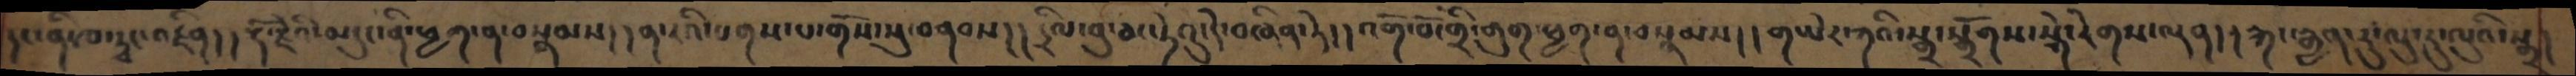དང་ནི་ཁ་ཏྭང་འཛིན། །རྡོ་རྗེའི་མདུང་ནི་ཕྱག་ན་བསྣམས། །ན་རའི་པགས་པ་གོས་སུ་བནབས། །དྲིལ་བུ་ཅང་ཏེའུ་དེ་བཞིན་ཏེ། །འགོ་བོ་གྲི་གུག་ཕྱག་ན་བསྣམས། །གཡེར་ཀའི་སྒྲ་སྒྲོགས་སྐེ་རེགས་ལྡན། །རྐང་རྒྱན་རུ་ལུ་རུ་ལུའི་སྒྲ་
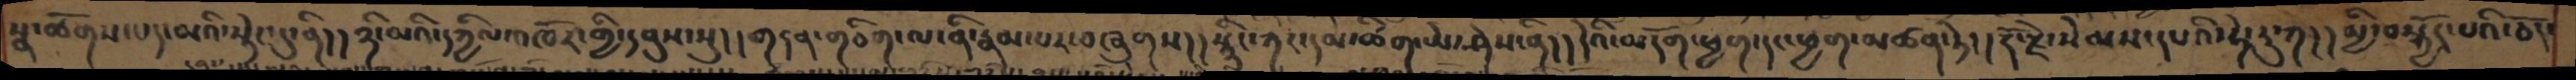སྣ་ཚོགས་པད་མའི་སྟེང་དུ་ནི། །ཉི་མའི་དཀྱིལ་འཁོར་གྱི་དབུས་སུ།། གདན་གཅིག་ལ་ནི་རྣམ་པར་བཞུགས། །སྙིང་ཀར་དམ་ཚིག་ཡེ་ཤེས་ནི།།དེའི་མདོག་ཕྱག་དང་ཕྱག་མཚན་ཏེ། །རྡོ་རྗེ་སེམས་དཔའི་ཧེ་རུ་ཀ།།མྱི་བསྐྱོད་པའི་ཅོད་
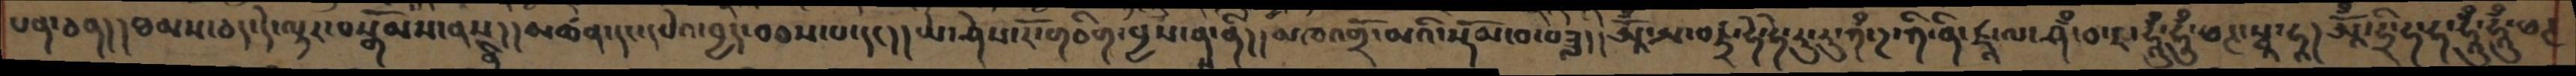པན་ཅན།།ཐམས་ཅད་དེ་ལྟར་བསྒོམས་ནས་ནི།།མཚན་དང་དཔེའ་བྱེད་བཅས་པ་དང། །ཡེ་ཤེས་རོ་གཅིག་བྱས་ནས་ནི།། མཁའགྲོ་མའི་སྡོམ་བ་བཟླ།། ཨཱོྃ་ཨ་བཛྲ་ཧེ་ཧེ་རུ་རུ་ཀྃ་ཌ་ཀི་ནི་ཛཱ་ལ་ཤྃ་བ་ར་ཧཱུྃ་ཧཱུྃ་ཕཊ་སྭཱ་ཧཱ། ཨཱོྃ་ཧྲི་ཧ་ཧ་ཧཱུྃ་ཧཱུྃ་ཕཊ
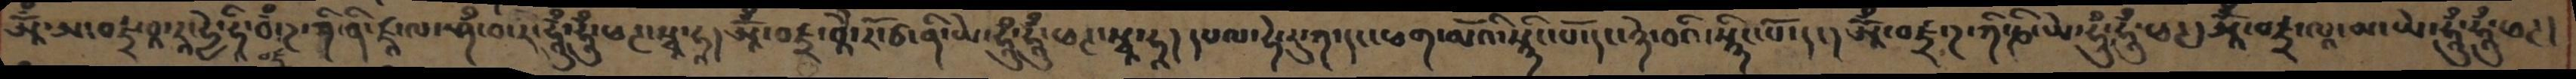ཨཱོྃ་ཨ་བཛྲ་བཱ་རཱ་ཧྱེ་ཧཱི་བྃ་ཌ་ཀི་ནི་ཛཱ་ལ་ཤྃ་བ་ར་ཧཱུྃ་ཧཱུྃ་ཕཊ་སྭཱ་ཧཱ། ཨཱོྃ་བཛྲ་བཱཻ་རོ་ཙ་ནི་ཡེ་ཧཱུྃ་ཧཱུྃ་ཕཊ་སྭཱ་ཧཱ། དཔལ་ཧེ་རུ་ཀ་དང་ཕག་མོའི་སྙིང་པོ་དང་ཉེ་བའི་སྙིང་པོ་དང། ཨཱོྃ་བཛྲ་ཌ་ཀི་ཎི་ཡེ་ཧཱུྃ་ཧཱུྃ་ཕཊ། ཨཱོྃ་བཛྲ་ལཱ་མ་ཡེ་ཧཱུྃ་ཧཱུྃ་ཕཊ།
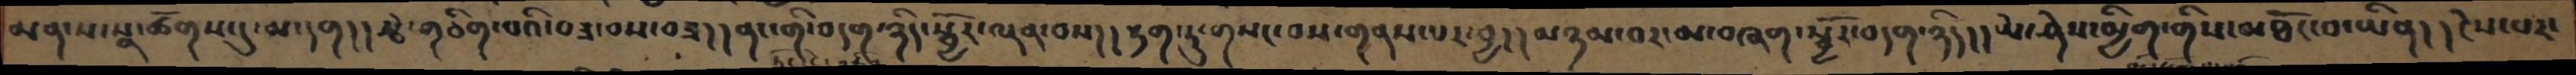མན་ས་སྣ་ཚོགས་དུ་མ་དག། །རྩེ་གཅིག་པའི་བཟ་བས་བཟ། །ནང་གི་བདག་ཉིད་སྦྱོར་ལྡན་བས།། རྟག་དུ་གསང་བས་གནས་པར་བྱ།། མཉམ་བར་མ་བཞག་སྦྱོར་བདག་ཉིད།། ཡེ་ཤེས་མྱིག་གིས་མཐོང་བ་ཡིན། །ངེས་པར་
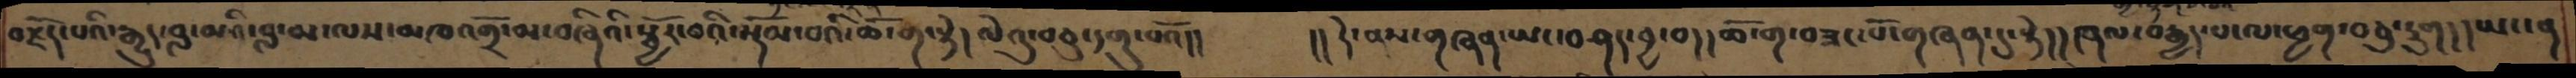བརྗོད་པའི་རྒྱུད་བླ་མའི་བླ་མ་ལས་མཁའགྲོ་མ་བཞིའི་སྦྱོར་བའི་སྡོམ་པའི་ཆོ་ག་སྟེ། ལེའུ་བཅུ་དགུ་པའོ།།   །།དེ་ནས་གཞན་ཡང་བཤད་བྱ་བ།། ཆོ་ག་བཟང་པོ་གཞན་དུ་སྟེ། ། ཞལ་བརྒྱད་པ་ལ་ཕྱག་བཅུ་དྲུག།།ཡང་ན
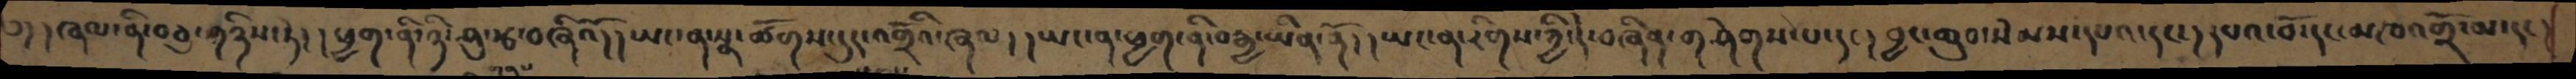བ།།ཞལ་ནི་བཅུ་གཉིས་ཏེ།།ཕྱག་ནི་ཉི་ཤུ་རྩ་བཞིའོ།།ཡང་ན་སྣ་ཚོགས་དུད་འགྲོའི་ཞལ། །ཡང་ན་ཕྱག་ནི་བརྒྱ་ཡིན་ནོ། །ཡང་ན་རིགས་ཀྱི་དེ་བཞིན་གཤེགས་པ་དང། བྱང་ཆུབ་སེམས་དཔའ་དང། དཔའ་བོ་དང་མཁའགྲོ་མ་དང།
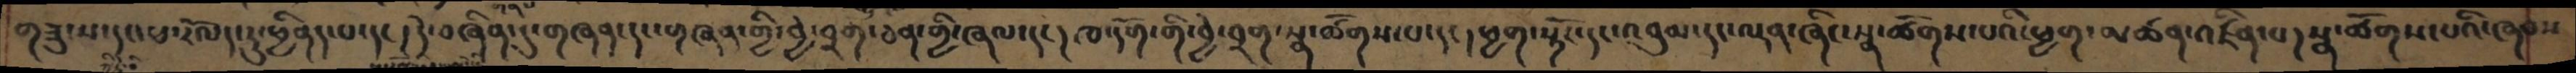གཟུངས་དང་ཕ་རོལད་ཏུ་ཕྱིནད་པ་དང། དེ་བཞིན་དུ་གཞན་དང་གཞན་གྱི་བྱེ་བྲག་ཅན་གྱི་ཞལ་དང། ཁ་དོག་གི་བྱེ་བྲག་སྣ་ཚོགས་པ་དང། ཕྱག་སྟོང་དང་འབུམ་དང་ལྡན་ཞིང་སྣ་ཚོགས་པའི་ཕྱག་མཚན་འཛིན་པ། སྣ་ཚོགས་པའི་ཞབས་
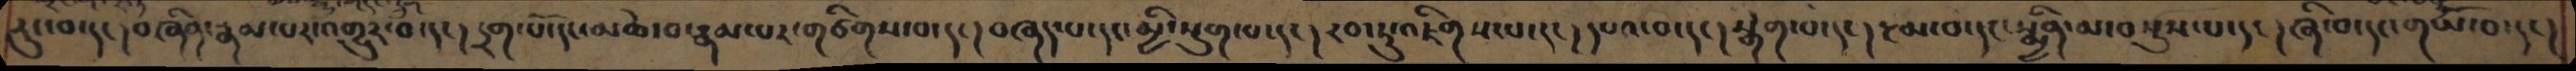རུང་བ་དང།བཞིན་རྣམ་པར་འགྱུར་བ་དང། དྲག་པོ་དང་མཆེ་བ་རྣམ་པར་གཙིགས་པ་དང། བཞད་པ་དང་མྱི་སྡུག་པ་དང། རབ་ཏུ་འཇིགས་པ་དང། དཔའ་བ་དང། སྒེག་པ་དང། རྔམ་བ་དང་སྨྱིན་མ་བསྡུས་པ་དང། ཞི་བ་དང་གཡོ་བ་དང།
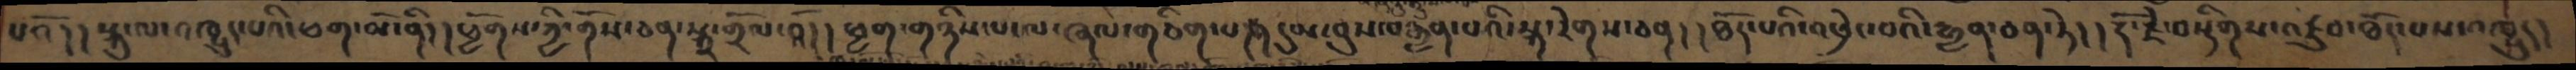པའོ།།སྐུ་ལ་འཁྱུད་པའི་ཕག་མོ་ནི།ཕྱོགས་ཀྱི་གོས་ཅན་སྐྲ་གྲོལ་བའོ།།ཕྱག་གཉིས་པ་ལ་ཞལ་གཅིག་པ།།དུམ་བུས་བརྒྱན་པའི་སྐ་རེགས་ཅན། །ཐོད་པའི་འཕྲེང་བའི་རྒྱན་ཅན་ཏེ། །རྡོ་རྗེ་བསྡིགས་འཛུབ་ཐོད་པས་འཁྱུད།
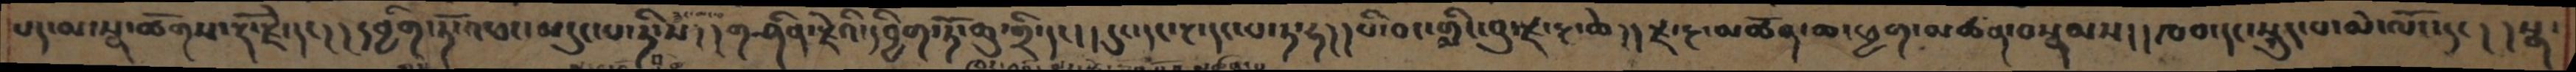པད་མ་སྣ་ཚོགས་རྡོ་རྗེ་དང།། དབྱིག་ཏོ་འཕང་མདུང་པ་ཏི་ས།། གཤིན་རྗེའི་དབྱིག་ཏོ་ཆུ་གྲི་དང།། དུང་དང་རྔ་དང་པ་ཏ་ཧ།། པི་བང་གླིང་བུ་རྫ་རྔ་ཆེ།། རྫ་རྔ་མཚོན་ཆ་ཕྱག་མཚན་བསྣམས།། ཁབ་དང་སྐུད་པ་མེ་ལོང་དང།། སྣ་
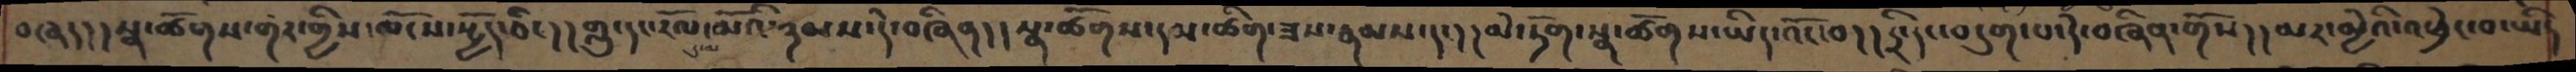བཞད།། སྣ་ཚོགས་གར་གྱིས་ལོངས་སྤྱོད་ཅིང།། གླུ་དང་རོལ་མོའི་ཉམས་དེ་བཞིན།། སྣ་ཚོགས་དམ་ཚིག་ཟས་རྣམས་དང།། མེ་ཏོག་སྣ་ཚོགས་ཡིད་འོང་བ།། དྲི་དང་བདུག་པ་དེ་བཞིན་གོས།། མར་མྱེའི་འཕྲེང་བ་ཡིད
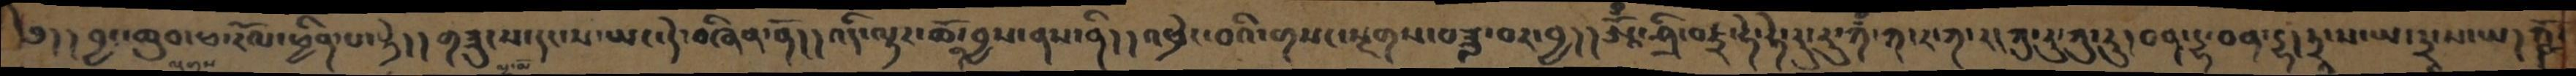༄། །བྱང་ཆུབ་ཕ་རོལ་ཕྱིན་པ་སྟེ།། གཟུངས་དང་ས་ཡང་དེ་བཞིན་ནོ།། འདི་ལྟར་ཆོ་ག་བྱས་ནས་ནི།། འཕྲེང་བའི་གསང་སྔགས་བཟླ་བར་བྱ།། ཨཱོྃ་ཤྲི་བཛྲ་ཧེ་ཧེ་རུ་རུ་ཀྃ་ཀ་ར་ཀ་ར།ཀུ་རུ་ཀུ་རུ།བན་དྷ་བན་དྷ།ཏྲཱ་ས་ཡ་ཏྲཱ་ས་ཡ། ཀྵ་
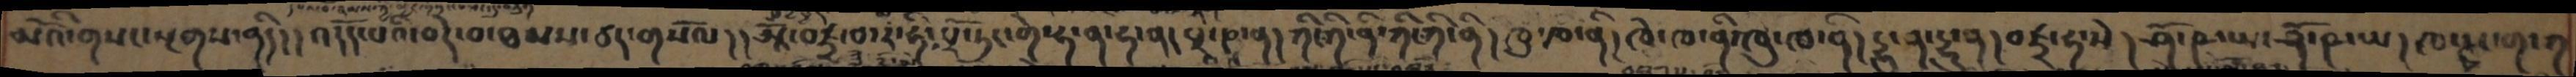མེའི་གསང་སྔགས་ནི།། འདོད་པའི་བདེ་བ་ཐམས་ཅད་གསོལ།། ཨཱོྃ་བཛྲ་བ་ར་ཧི་པྲོ་ཏང་གི་ཧ་ན་ཧ་ན། པྲཱ་ཎཱ་ན། ཀི་ཀི་ནི་ཀི་ཀི་ནི། ཁུ་ཁ་ནི། ཁེ་ཁ་ནི་ཁུ་ཁ་ནི། དྷུ་ན་དྷུ་ན། བཛྲ་ཧ་སེ། ཤོ་ཥ་ཡ་ཤོ་ཥ་ཡ། ཁ་ཊྭང་ག་ཀ
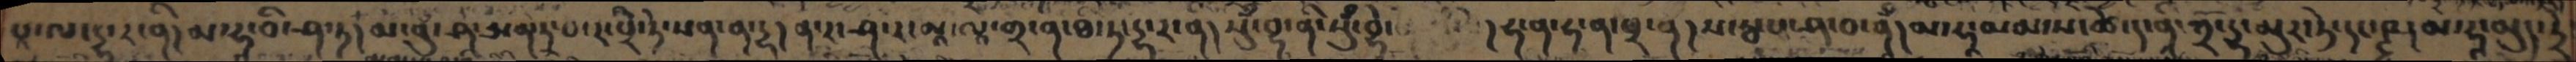པཱ་ལ་དྷ་ར་ནི། མ་ཧཱ་བི་ཤ་ཏ། མ་བུ་ཤ་ཨན་ཏ་པ་ར་པྲི་ཏེ་སན་ན་དྷ། ན་ར་ཤ་ར།མཱ་ལཱ་གྲ་ན་ཐ་ཏ་དྷ་ར་ན། སུཾ་བྷ་ནི་སུཾ་བྷེ་  །དྷ་ན་དྷ་ན་པྲ་ན། ས་རྦ་པ་ཤ་བ་ནྃ། མ་ཧཱ་མམ་ས་ཚེ་ད་ནཱི་ཀྲོ་དྷ་མུར་ཏེ་དང་ཥྚ། མ་དྷ་མུད་ཏྲེ་
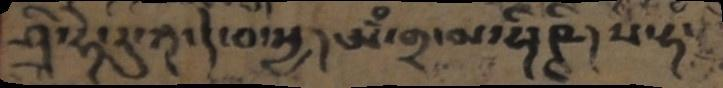ཤྲི་ཧེ་རུ་ཀ་དེ་བ་སྱ། ཨྃ་གྲ་མ་དྷི་ཥཱི། སི་ཧཾ་
